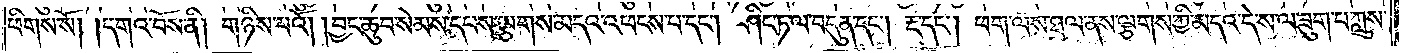ཕིགས་སོ། །དགའ་བོས་ནི། གཉིས་པའོ། །བྱང་ཆུབ་སེམས་དཔས་ལྕགས་མདའ་འཕངས་པ་དང༌། ཤིང་ཏ་ལ་བདུན་དང༌། རྔ་དང༌། ཕག་ལས་ཐལ་ནས་ལྕགས་ཀྱི་མདའ་དེ་ས་ལ་ཟུག་པ་ཀླུས་
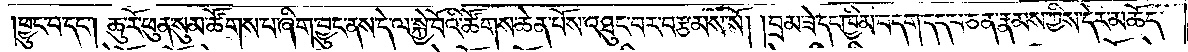།ཕྱུང་བ་དང༌། ཆུ་རོ་ཕུན་སུམ་ཚོགས་པ་ཞིག་བྱུང་ནས་དེ་ལ་སྐྱེ་བོའི་ཚོགས་ཆེན་པོས་འཐུང་བར་བརྩམས་སོ། །བྲམ་ཟེ་དང་ཁྱིམ་བདག་དད་པ་ཅན་རྣམས་ཀྱིས་དེར་མཆོད་
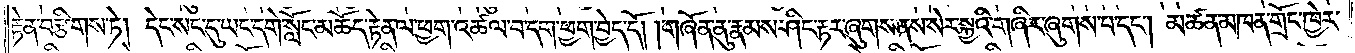རྟེན་བརྩིགས་ཏེ། དེང་སང་དུ་ཡང་དགེ་སློང་མཆོད་རྟེན་ལ་ཕྱག་འཚལ་བ་དག་ཕྱག་བྱེད་དོ། །གཞོན་ནུ་རྣམས་ཤིང་རྟར་ཞུགས་ནས་སེར་སྐྱའི་གཞིར་ཞུགས་པ་དང༌། མཚན་མཁན་གྲོང་ཁྱེར་
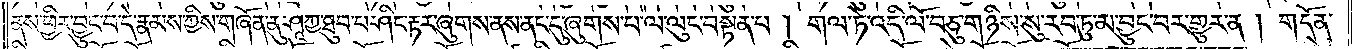ནས་ཕྱིར་བྱུང་བ་དེ་རྣམས་ཀྱིས་གཞོན་ནུ་ཤཱཀྱ་ཐུབ་པ་ཤིང་རྟར་ཞུགས་ནས་ནང་དུ་ཞུགས་པ་ལ་ལུང་བསྟན་པ། གལ་ཏེ་འདི་ལོ་བཅུ་གཉིས་སུ་རབ་ཏུ་མ་བྱུང་བར་གྱུར་ན། གདོན་
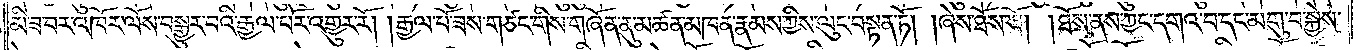མི་ཟ་བར་འཁོར་ལོས་བསྒྱུར་བའི་རྒྱལ་པོར་འགྱུར་རོ། །རྒྱལ་པོ་ཟས་གཙང་གིས་གཞོན་ནུ་མཚན་མཁན་རྣམས་ཀྱིས་ལུང་བསྟན་ཏོ། །ཞེས་ཐོས་སོ། །ཐོས་ནས་ཀྱང་དགའ་བ་དང་མགུ་བ་སྐྱེས་
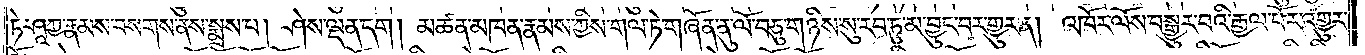ཏེ་ཤཱཀྱ་རྣམས་བསགས་ནས་སྨྲས་པ། ཤེས་ལྡན་དག །མཚན་མཁན་རྣམས་ཀྱིས་གལ་ཏེ་གཞོན་ནུ་ལོ་བཅུ་གཉིས་སུ་རབ་ཏུ་མ་བྱུང་བར་གྱུར་ན། འཁོར་ལོས་བསྒྱུར་བའི་རྒྱལ་པོར་འགྱུར་
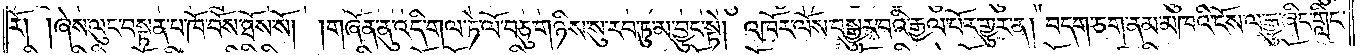རོ། །ཞེས་ལུང་བསྟན་པ་ཁོ་བོས་ཐོས་སོ། །གཞོན་ནུ་འདི་གལ་ཏེ་ལོ་བཅུ་གཉིས་སུ་རབ་ཏུ་མ་བྱུང་སྟེ། འཁོར་ལོས་བསྒྱུར་བའི་རྒྱལ་པོར་གྱུར་ན། བདག་ཅག་ནམ་མཁའི་ངོས་ལ་རྒྱུ་ཞིང་གླིང་
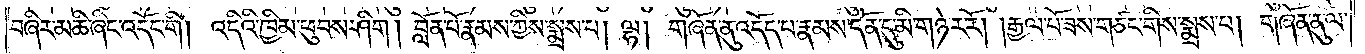བཞིར་མཆི་ཞིང་འདོང་གི། འདིའི་ཁྱིམ་ཕུབས་ཤིག། བློན་པོ་རྣམས་ཀྱིས་སྨྲས་པ། ལྷ། གཞོན་ནུ་འདོད་པ་རྣམས་དོན་དུ་མི་གཉེར་རོ། །རྒྱལ་པོ་ཟས་གཙང་གིས་སྨྲས་པ། གཞོན་ནུ་ལ་
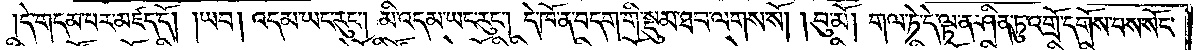དེ་གདམ་པར་མཛད་དོ། །ཡབ། འདམ་ཡང་རུང༌། མི་འདམ་ཡང་རུང༌། དེ་ཁོ་ན་བདག་གི་སྡུམ་ཐབ་ལགས་སོ། །བུ་མོ། གལ་ཏེ་དེ་ལྟ་ན་ཤིན་ཏུ་འགྲོ་དགོས་པས་སོང་
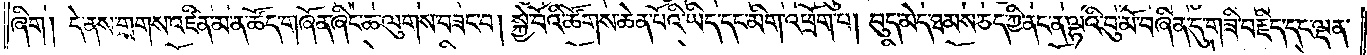ཞིག །དེ་ནས་གྲགས་འཛིན་མ་ན་ཚོད་གཞོན་ཞིང་ཆ་ལུགས་བཟང་བ། སྐྱེ་བོའི་ཚོགས་ཆེན་པོའི་ཡིད་དང་མིག་འཕྲོག་པ། བུད་མེད་ཐམས་ཅད་ཀྱི་ནང་ན་ལྷའི་བུ་མོ་བཞིན་དུ་གཟི་བརྗིད་དང་ལྡན་
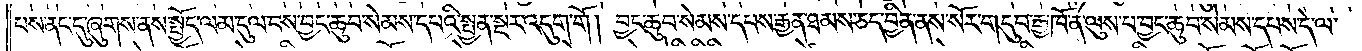པས་ནང་དུ་ཞུགས་ནས་སྤྱོད་ལམ་དུལ་བས་བྱང་ཆུབ་སེམས་དཔའི་སྤྱན་སྔར་འདུག་གོ། བྱང་ཆུབ་སེམས་དཔས་རྒྱན་ཐམས་ཅད་བྱིན་ནས་སོར་གདུབ་རྒྱ་ཁོ་ན་ལུས་པ་བྱང་ཆུབ་སེམས་དཔས་དེ་ལ་
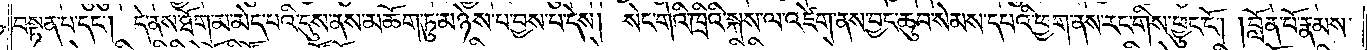བསྟན་པ་དང༌། དེ་ནས་ཐོག་མ་མེད་པའི་དུས་ནས་མཆོག་ཏུ་མཉེས་པ་བྱས་པ་དེས། སེང་གེའི་ཁྲིའི་སྐས་ལ་འཛེག་ནས་བྱང་ཆུབ་སེམས་དཔའི་ཕྱག་ནས་རང་གིས་ཕྱུང་ངོ༌། །བློན་པོ་རྣམས་
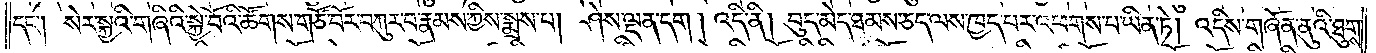དང༌། སེར་སྐྱའི་གཞིའི་སྐྱེ་བོའི་ཚོགས་གཙོ་བོར་བཀུར་བ་རྣམས་ཀྱིས་སྨྲས་པ། ཤེས་ལྡན་དག །འདི་ནི། བུད་མེད་ཐམས་ཅད་ལས་ཁྱད་པར་འཕགས་པ་ཡིན་ཏེ། འདིས་གཞོན་ནུའི་ཐུགས་
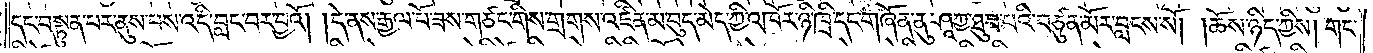དང་བསྟུན་པར་ནུས་པས་འདི་བླང་བར་བྱའོ། །དེ་ནས་རྒྱལ་པོ་ཟས་གཙང་གིས་གྲགས་འཛིན་མ་བུད་མེད་ཀྱི་འཁོར་ཉི་ཁྲི་དང་གཞོན་ནུ་ཤཱཀྱ་ཐུབ་པའི་བཙུན་མོར་བླངས་སོ། །ཆོས་ཉིད་ཀྱིས། གང་
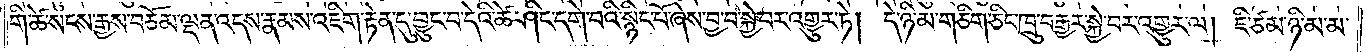གི་ཚེ་སངས་རྒྱས་བཅོམ་ལྡན་འདས་རྣམས་འཇིག་རྟེན་དུ་བྱུང་བ་དེའི་ཚེ་ཤིང་དགེ་བའི་སྙིང་པོ་ཞེས་བྱ་བ་སྐྱེ་བར་འགྱུར་ཏེ། དེ་ཉི་མ་གཅིག་ཅིང་ཁྲུ་བརྒྱར་སྐྱེ་བར་འགྱུར་ལ། ཇི་ཙམ་ཉི་མ་མ་
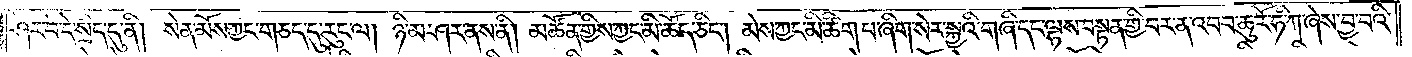ཤར་བ་དེ་སྲིད་དུ་ནི། སེན་མོས་ཀྱང་གཅད་དུ་རུང་ལ། ཉི་མ་ཤར་ནས་ནི། མཚོན་གྱིས་ཀྱང་མི་ཆོད་ཅིང༌། མེས་ཀྱང་མི་ཚིག་པ་ཞིག་སེར་སྐྱའི་གཞི་དང་ལྷས་བསྟན་གྱི་བར་ན་འབབ་ཆུ་རོ་ཧི་ཀ་ཞེས་བྱ་བའི་
